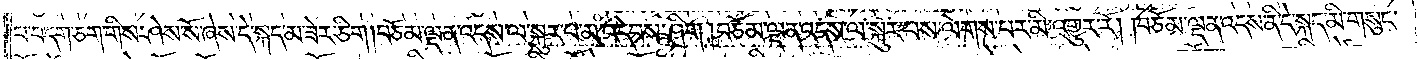པ་བདག་ཅག་གིས་ཤེས་སོ་ཞེས་དེ་སྐད་མ་ཟེར་ཅིག །བཅོམ་ལྡན་འདས་ལ་སྐུར་པ་མ་འདེབས་ཤིག །བཅོམ་ལྡན་འདས་ལ་སྐུར་པས་ལེགས་པར་མི་འགྱུར་རོ། །བཅོམ་ལྡན་འདས་ནི་དེ་སྐད་མི་གསུང་
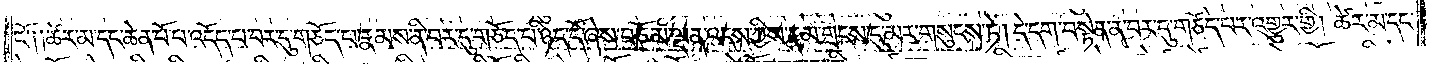ངོ༑ ༑ཚེར་མ་དང་ཆེན་པོ་པ་འདོད་པ་བར་དུ་གཅོད་པ་རྣམས་ནི་བར་དུ་གཅོད་པ་ཉིད་དོ་ཞེས་བཅོམ་ལྡན་འདས་ཀྱིས་རྣམ་གྲངས་དུ་མར་གསུངས་ཏེ། དེ་དག་བསྟེན་ན་བར་དུ་གཅོད་པར་འགྱུར་གྱི། ཚེར་མ་དང་
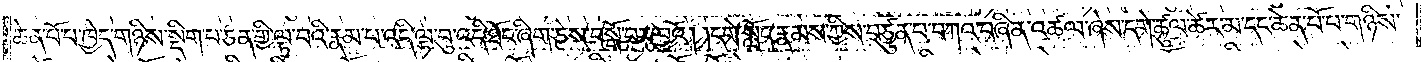ཆེན་པོ་པ་ཁྱེད་གཉིས་སྡིག་པ་ཅན་གྱི་ལྟ་བའི་རྣམ་པ་འདི་ལྟ་བུ་འདི་ཐོང་ཞིག་ཅེས་བསྒོ་བར་བྱའོ། །དགེ་སློང་རྣམས་ཀྱིས་བཙུན་པ་བཀའ་བཞིན་འཚལ་ཞེས་དགེ་ཚུལ་ཚེར་མ་དང་ཆེན་པོ་པ་གཉིས་
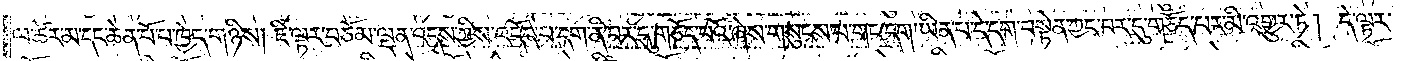ལ་ཚེར་མ་དང་ཆེན་པོ་པ་ཁྱེད་གཉིས། ཇི་ལྟར་བཅོམ་ལྡན་འདས་ཀྱིས་འདོད་པ་དག་ནི་བར་དུ་གཅོད་པའོ་ཞེས་གསུངས་པ་གང་དག་ཡིན་པ་དེ་དག་བསྟེན་ཀྱང་བར་དུ་གཅོད་པར་མི་འགྱུར་ཏེ། དེ་ལྟར་
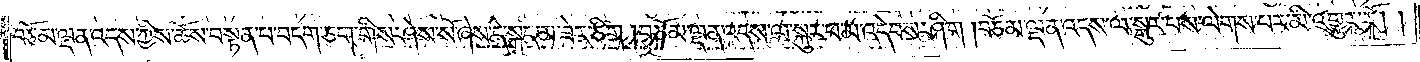བཅོམ་ལྡན་འདས་ཀྱིས་ཆོས་བསྟན་པ་བདག་ཅག་གིས་ཤེས་སོ་ཞེས་དེ་སྐད་མ་ཟེར་ཅིག །བཅོམ་ལྡན་འདས་ལ་སྐུར་པ་མ་འདེབས་ཤིག །བཅོམ་ལྡན་འདས་ལ་སྐུར་པས་ལེགས་པར་མི་འགྱུར་རོ། །
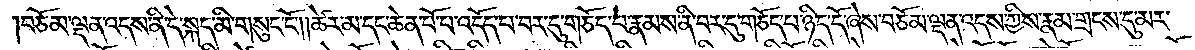བཅོམ་ལྡན་འདས་ནི་དེ་སྐད་མི་གསུང་ངོ༌། །ཚེར་མ་དང་ཆེན་པོ་པ་འདོད་པ་བར་དུ་གཅོད་པ་རྣམས་ནི་བར་དུ་གཅོད་པ་ཉིད་དོ་ཞེས་བཅོམ་ལྡན་འདས་ཀྱིས་རྣམ་གྲངས་དུ་མར་
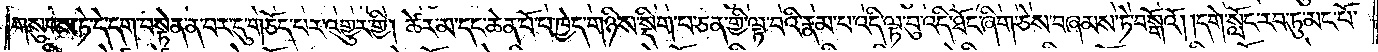གསུངས་ཏེ་དེ་དག་བསྟེན་ན་བར་དུ་གཅོད་པར་འགྱུར་གྱི། ཚེར་མ་དང་ཆེན་པོ་པ་ཁྱེད་གཉིས་སྡིག་པ་ཅན་གྱི་ལྟ་བའི་རྣམ་པ་འདི་ལྟ་བུ་འདི་ཐོང་ཞིག་ཅེས་བཞམས་ཏེ་བསྒོའོ། །དགེ་སློང་རབ་ཏུ་མང་པོ་
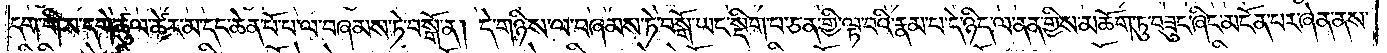དག་གིས་དགེ་ཚུལ་ཚེར་མ་དང་ཆེན་པོ་པ་ལ་བཞམས་ཏེ་བསྒོ་ན། དེ་གཉིས་ལ་བཞམས་ཏེ་བསྒོ་ཡང་སྡིག་པ་ཅན་གྱི་ལྟ་བའི་རྣམ་པ་དེ་ཉིད་ལ་ནན་གྱིས་མཆོག་ཏུ་བཟུང་ཞིང་མངོན་པར་ཞེན་ནས་
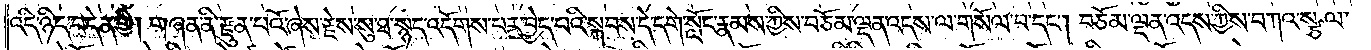འདི་ཉིད་བདེན་གྱི། གཞན་ནི་རྫུན་པའོ་ཞེས་རྗེས་སུ་ཐ་སྙད་འདོགས་པར་བྱེད་པའི་སྐབས་དེ་དགེ་སློང་རྣམས་ཀྱིས་བཅོམ་ལྡན་འདས་ལ་གསོལ་བ་དང༌། བཅོམ་ལྡན་འདས་ཀྱིས་བཀའ་སྩལ་
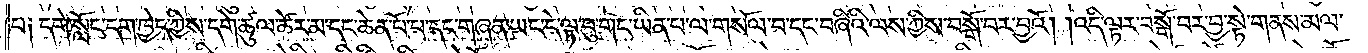པ༑ དགེ་སློང་དག་ཁྱེད་ཀྱིས་དགེ་ཚུལ་ཚེར་མ་དང་ཆེན་པོ་པ་དང་གཞན་ཡང་དེ་ལྟ་བུ་གང་ཡིན་པ་ལ་གསོལ་བ་དང་བཞིའི་ལས་ཀྱིས་བསྒོ་བར་བྱའོ། །འདི་ལྟར་བསྒོ་བར་བྱ་སྟེ་གནས་མལ་
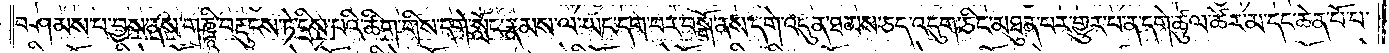བཤམས་པ་བྱས་ནས་གཎྜཱི་བརྡུངས་ཏེ་དྲིས་པའི་ཚིག་གིས་དགེ་སློང་རྣམས་ལ་ཡང་དག་པར་བསྒོ་ནས་དགེ་འདུན་ཐམས་ཅད་འདུག་ཅིང་མཐུན་པར་གྱུར་པ་ན་དགེ་ཚུལ་ཚེར་མ་དང་ཆེན་པོ་པ་
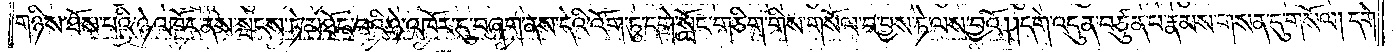གཉིས་ཐོས་པའི་ཉེ་འཁོར་ནས་སྤངས་ཏེ་མཐོང་བའི་ཉེ་འཁོར་དུ་བཞག་ནས་དེའི་འོག་ཏུ་དགེ་སློང་གཅིག་གིས་གསོལ་བ་བྱས་ཏེ་ལས་བྱའོ། །དགེ་འདུན་བཙུན་པ་རྣམས་གསན་དུ་གསོལ། དགེ་
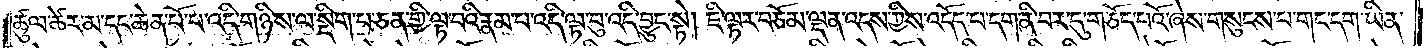ཚུལ་ཚེར་མ་དང་ཆེན་པོ་པ་འདི་གཉིས་ལ་སྡིག་པ་ཅན་གྱི་ལྟ་བའི་རྣམ་པ་འདི་ལྟ་བུ་འདི་བྱུང་སྟེ། ཇི་ལྟར་བཅོམ་ལྡན་འདས་ཀྱིས་འདོད་པ་དག་ནི་བར་དུ་གཅོད་པའོ་ཞེས་གསུངས་པ་གང་དག་ཡིན་
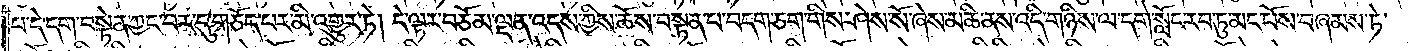པ་དེ་དག་བསྟེན་ཀྱང་བར་དུ་གཅོད་པར་མི་འགྱུར་ཏེ། དེ་ལྟར་བཅོམ་ལྡན་འདས་ཀྱིས་ཆོས་བསྟན་པ་བདག་ཅག་གིས་ཤེས་སོ་ཞེས་མཆི་ནས་འདི་གཉིས་ལ་དགེ་སློང་རབ་ཏུ་མང་པོས་བཞམས་ཏེ་
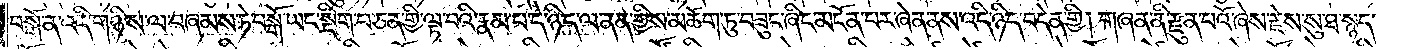བསྒོ་ན་འདི་གཉིས་ལ་བཞམས་ཏེ་བསྒོ་ཡང་སྡིག་པ་ཅན་གྱི་ལྟ་བའི་རྣམ་པ་དེ་ཉིད་ལ་ནན་གྱིས་མཆོག་ཏུ་བཟུང་ཞིང་མངོན་པར་ཞེན་ནས་འདི་ཉིད་བདེན་གྱི། གཞན་ནི་རྫུན་པའོ་ཞེས་རྗེས་སུ་ཐ་སྙད་
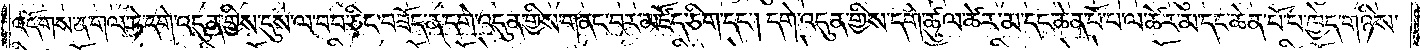འདོགས་ན་གལ་ཏེ་དགེ་འདུན་གྱིས་དུས་ལ་བབ་ཅིང་བཟོད་ན་དགེ་འདུན་གྱིས་གནང་བར་མཛོད་ཅིག་དང༌། དགེ་འདུན་གྱིས་དགེ་ཚུལ་ཚེར་མ་དང་ཆེན་པོ་པ་ལ་ཚེར་མ་དང་ཆེན་པོ་པ་ཁྱེད་གཉིས་
